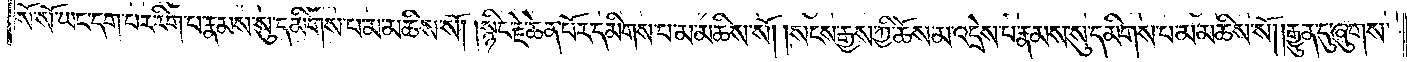སོ་སོ་ཡང་དག་པར་རིག་པ་རྣམས་སུ་དམིགས་པ་མ་མཆིས་སོ། །སྙིང་རྗེ་ཆེན་པོར་དམིགས་པ་མ་མཆིས་སོ། །སངས་རྒྱས་ཀྱི་ཆོས་མ་འདྲེས་པ་རྣམས་སུ་དམིགས་པ་མ་མཆིས་སོ། །རྒྱུན་དུ་ཞུགས་
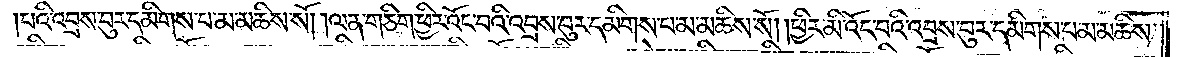པའི་འབྲས་བུར་དམིགས་པ་མ་མཆིས་སོ། །ལན་གཅིག་ཕྱིར་འོང་བའི་འབྲས་བུར་དམིགས་པ་མ་མཆིས་སོ། །ཕྱིར་མི་འོང་བའི་འབྲས་བུར་དམིགས་པ་མ་མཆིས་
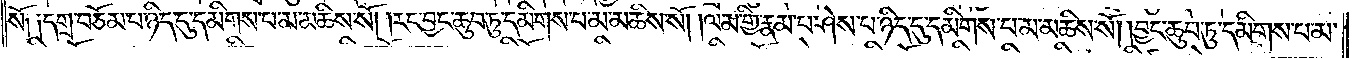སོ༑ ༑དགྲ་བཅོམ་པ་ཉིད་དུ་དམིགས་པ་མ་མཆིས་སོ། །རང་བྱང་ཆུབ་ཏུ་དམིགས་པ་མ་མཆིས་སོ། །ལམ་གྱི་རྣམ་པ་ཤེས་པ་ཉིད་དུ་དམིགས་པ་མ་མཆིས་སོ། །བྱང་ཆུབ་ཏུ་དམིགས་པ་མ་
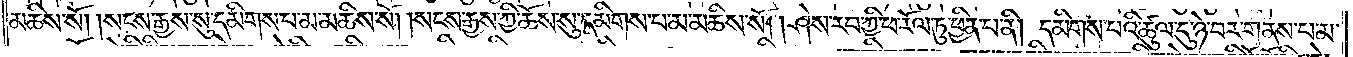མཆིས་སོ། །སངས་རྒྱས་སུ་དམིགས་པ་མ་མཆིས་སོ། །སངས་རྒྱས་ཀྱི་ཆོས་སུ་དམིགས་པ་མ་མཆིས་ཏེ། ཤེས་རབ་ཀྱི་ཕ་རོལ་ཏུ་ཕྱིན་པ་ནི། དམིགས་པའི་ཚུལ་དུ་ཉེ་བར་གནས་པ་མ་
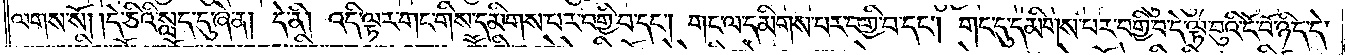ལགས་སོ། །དེ་ཅིའི་སླད་དུ་ཞེ་ན། དེ་ནི། འདི་ལྟར་གང་གིས་དམིགས་པར་བགྱི་བ་དང༌། གང་ལ་དམིགས་པར་བགྱི་བ་དང༌། གང་དུ་དམིགས་པར་བགྱི་བ་དེ་ལྟ་བུའི་ངོ་བོ་ཉིད་དེ་
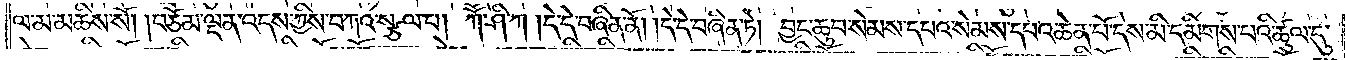ལ་མ་མཆིས་སོ། །བཅོམ་ལྡན་འདས་ཀྱིས་བཀའ་སྩལ་པ། ཀཽ་ཤི་ཀ །དེ་དེ་བཞིན་ནོ། དེ་དེ་བཞིན་ཏེ། བྱང་ཆུབ་སེམས་དཔའ་སེམས་དཔའ་ཆེན་པོ་དེས་མི་དམིགས་པའི་ཚུལ་དུ་
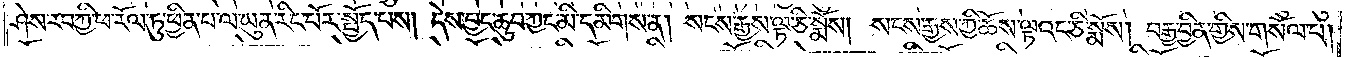ཤེས་རབ་ཀྱི་ཕ་རོལ་ཏུ་ཕྱིན་པ་ལ་ཡུན་རིང་པོར་སྤྱོད་པས། དེས་བྱང་ཆུབ་ཀྱང་མི་དམིགས་ན། སངས་རྒྱས་ལྟ་ཅི་སྨོས། སངས་རྒྱས་ཀྱི་ཆོས་ལྟའང་ཅི་སྨོས། བརྒྱ་བྱིན་གྱིས་གསོལ་པ།
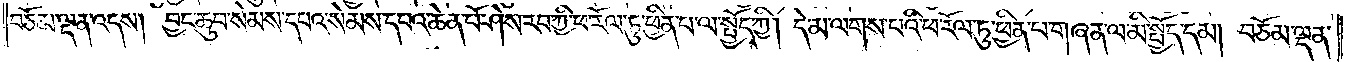བཅོམ་ལྡན་འདས། བྱང་ཆུབ་སེམས་དཔའ་སེམས་དཔའ་ཆེན་པོ་ཤེས་རབ་ཀྱི་ཕ་རོལ་ཏུ་ཕྱིན་པ་ལ་སྤྱོད་ཀྱི། དེ་མ་ལགས་པའི་ཕ་རོལ་ཏུ་ཕྱིན་པ་གཞན་ལ་མི་སྤྱོད་དམ། བཅོམ་ལྡན་
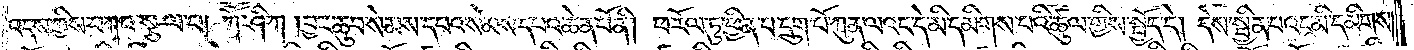འདས་ཀྱིས་བཀའ་སྩལ་པ། ཀཽ་ཤི་ཀ །བྱང་ཆུབ་སེམས་དཔའ་སེམས་དཔའ་ཆེན་པོ་ནི། ཕ་རོལ་ཏུ་ཕྱིན་པ་དྲུག་པོ་ཀུན་ལའང་དེ་མི་དམིགས་པའི་ཚུལ་གྱིས་སྤྱོད་དེ། དེས་སྦྱིན་པའང་མི་དམིགས་
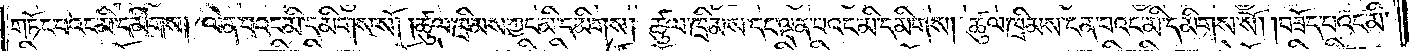གཏོང་བའང་མི་དམིགས། ལེན་པའང་མི་དམིགས་སོ། །ཚུལ་ཁྲིམས་ཀྱང་མི་དམིགས། ཚུལ་ཁྲིམས་དང་ལྡན་པའང་མི་དམིགས། ཚུལ་ཁྲིམས་ངན་པའང་མི་དམིགས་སོ། །བཟོད་པའང་མི་
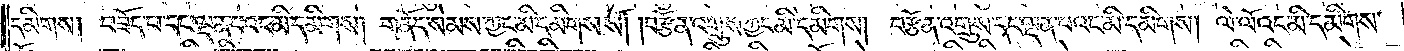དམིགས། བཟོད་པ་དང་ལྡན་པའང་མི་དམིགས། གནོད་སེམས་ཀྱང་མི་དམིགས་སོ། །བརྩོན་འགྲུས་ཀྱང་མི་དམིགས། བརྩོན་འགྲུས་དང་ལྡན་པའང་མི་དམིགས། ལེ་ལོའང་མི་དམིགས་
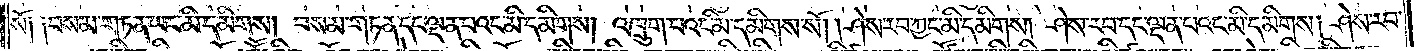སོ། །བསམ་གཏན་ཡང་མི་དམིགས། བསམ་གཏན་དང་ལྡན་པའང་མི་དམིགས། འཁྲུག་པའང་མི་དམིགས་སོ། །ཤེས་རབ་ཀྱང་མི་དམིགས། ཤེས་རབ་དང་ལྡན་པའང་མི་དམིགས། ཤེས་རབ་
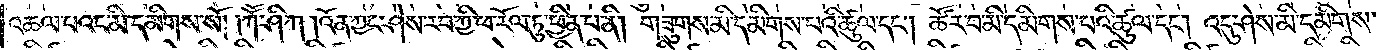འཆལ་པའང་མི་དམིགས་སོ། །ཀཽ་ཤི་ཀ །འོན་ཀྱང་ཤེས་རབ་ཀྱི་ཕ་རོལ་ཏུ་ཕྱིན་པ་ནི། གཟུགས་མི་དམིགས་པའི་ཚུལ་དང༌། ཚོར་བ་མི་དམིགས་པའི་ཚུལ་དང༌། འདུ་ཤེས་མི་དམིགས་
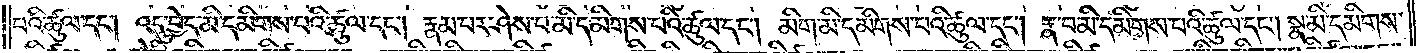པའི་ཚུལ་དང༌། འདུ་བྱེད་མི་དམིགས་པའི་ཚུལ་དང༌། རྣམ་པར་ཤེས་པ་མི་དམིགས་པའི་ཚུལ་དང༌། མིག་མི་དམིགས་པའི་ཚུལ་དང༌། རྣ་བ་མི་དམིགས་པའི་ཚུལ་དང༌། སྣ་མི་དམིགས་
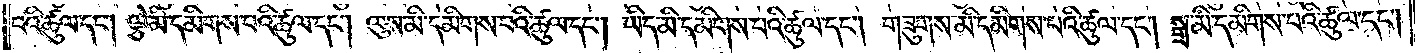པའི་ཚུལ་དང༌། ལྕེ་མི་དམིགས་པའི་ཚུལ་དང༌། ལུས་མི་དམིགས་པའི་ཚུལ་དང༌། ཡིད་མི་དམིགས་པའི་ཚུལ་དང༌། གཟུགས་མི་དམིགས་པའི་ཚུལ་དང༌། སྒྲ་མི་དམིགས་པའི་ཚུལ་དང༌།
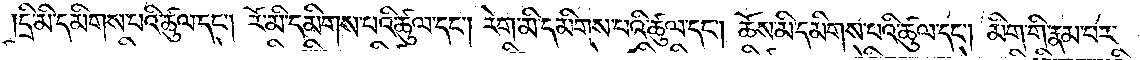དྲི་མི་དམིགས་པའི་ཚུལ་དང༌། རོ་མི་དམིགས་པའི་ཚུལ་དང༌། རེག་མི་དམིགས་པའི་ཚུལ་དང༌། ཆོས་མི་དམིགས་པའི་ཚུལ་དང༌། མིག་གི་རྣམ་པར་
